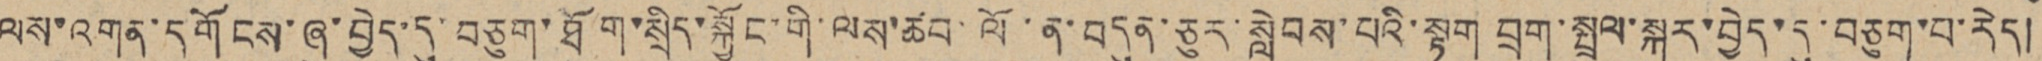ལས་འགན་དགོངས་ཞུ་བྱེད་དུ་བཅུག་ཐོག་སྲིད་སྐྱོང་གི་ལས་ཚབ་ལོ་ན་བདུན་ཅུར་སླེབས་པའི་སྟག བྲག་སྤྲུལ་སྐུར་བྱེད་དུ་བཅུག་པ་རེད།
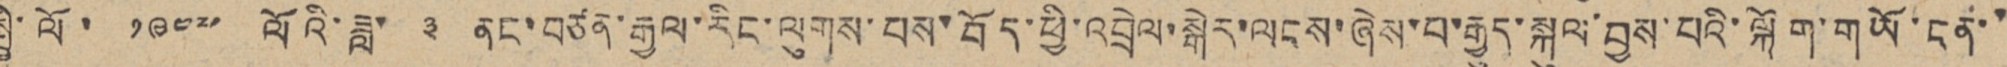སྤྱི་ལོ་ ༡༩༤༧ ལོའི་ཟླ་ ༣ ནང་བཙན་རྒྱལ་རིང་ལུགས་པས་བོད་ཕྱི་འབྲེལ་སྒེར་ལངས་ཞེས་པ་རྒྱུད་སྐུལ་བྱས་པའི་ལྐོག་གཡོ་ངན་་
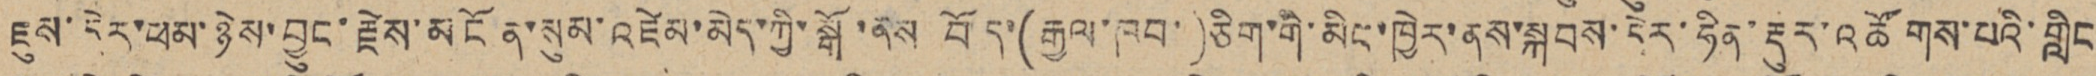ཇུས་དེར་ཕམ་ཉེས་བྱུང་རྗེས་མངོན་སུམ་འཛེམ་མེད་ཀྱི་སྒོ་ནས བོད་(རྒྱལ་ཁབ་)ཅིག་གི་མིང་ཁྱེར་ནས་སྐབས་དེར་ཧིན་རྡུར་འཚོགས་པའི་གླིང
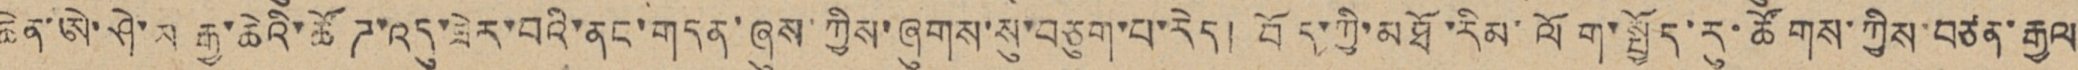ཆེན་ཨེ་ཤེ་ཡ རྒྱ་ཆེའི་ཚོཊ་འདུ་ཟེར་བའི་ནང་གདན་ཞུས་ཀྱིས་ཞུགས་སུ་བཅུག་པ་རེད། བོད་ཀྱི་མཐོ་རིམ་ལོག་སྤྱོད་རུ་ཚོགས་ཀྱིས་བཙན་རྒྱལ
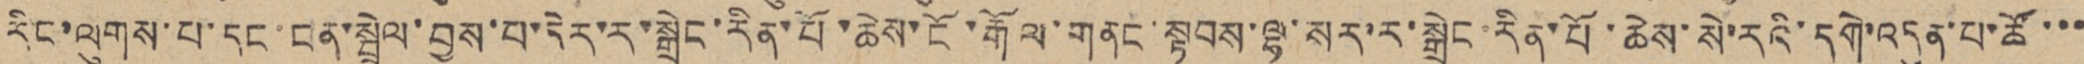རིང་ལུགས་པ་དང་བན་སྦྲེལ་བྱས་པ་དེར་ར་སྒྲེང་རིན་པོ་ཆེས་ངོ་རྒོལ་གནང་སྟབས་ལྷ་སར་ར་སྒྲེང་རིན་པོ་ཆེས་སེ་རའི་དགེ་འདུན་པ་ཚོ་་་
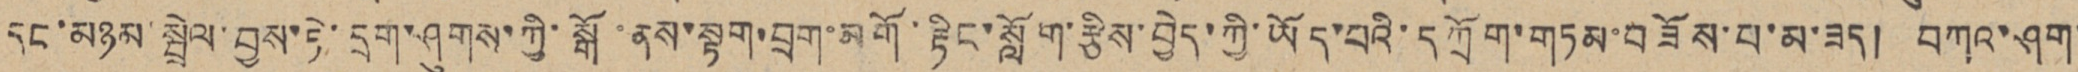དང་མཉམ་སྦྲེལ་བྱས་ཏེ་དྲག་ཤུགས་ཀྱི་སྒོ་ནས་སྟག་བྲག་མགོ་རྟིང་སློག་རྩིས་བྱེད་ཡོད་པའི་དཀྲོག་གཏམ་བཟོས་པ་མ་ཟད། བཀའ་ཤག་
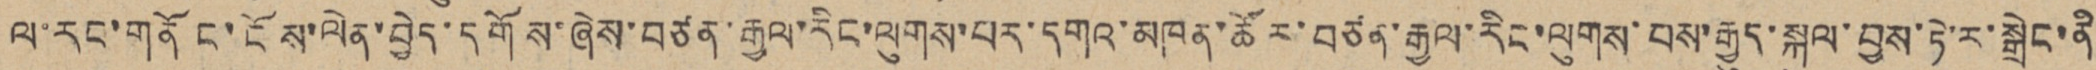ལ་རང་གནོང་ངོས་ལེན་བྱེད་དགོས་ཞེས་བཙན་རྒྱལ་རིང་ལུགས་པར་དགའ་མཁན་ཚོར་བཙན་རྒྱལ་རིང་ལུགས་པས་རྒྱུད་སྐུལ་བྱས་ཏེ་ར་སྒྲེང་ནི
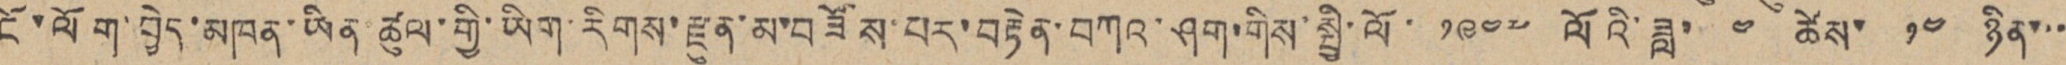ངོ་ལོག་བྱེད་མཁན་ཡིན་ཚུལ་གྱི་ཡིག་རིགས་རྫུན་མ་བཟོས་པར་བརྟེན་བཀའ་ཤག་གིས་སྤྱི་ལོ་ ༡༩༥༧ ལོའི་ཟླ་ ༤ ཚེས་ ༡༤ ཉིན་་་
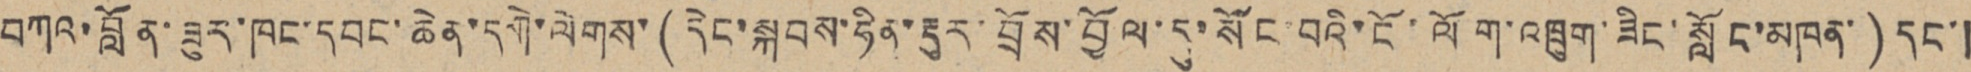བཀའ་བློན་ཟུར་ཁང་དབང་ཆེན་དགེ་ལེགས་(དེང་སྐབས་ཧིན་རྡུར་བྲོས་བྱོལ་དུ་སོང་བའི་ངོ་ལོག་འཁྲུག་ཟིང་སློང་མཁན་)དང་།
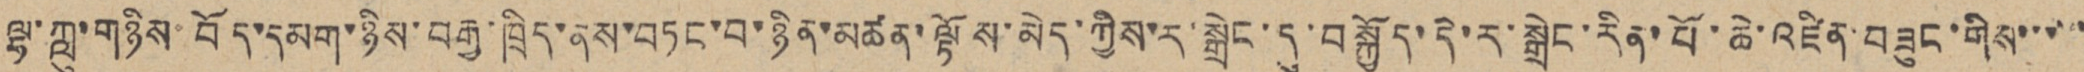ལྷ་ཀླུ་གཉིས་བོད་དམག་ཉིས་བརྒྱ་ཁྲིད་ནས་བཏང་བ་ཉིན་མཚན་ལྟོས་མེད་ཀྱིས་ར་སྒྲེང་དུ་བསྐྱོད་དེ་ར་སྒྲེང་རིན་པོ་ཆེ་འཛིན་བཟུང་གིས་་་་་་
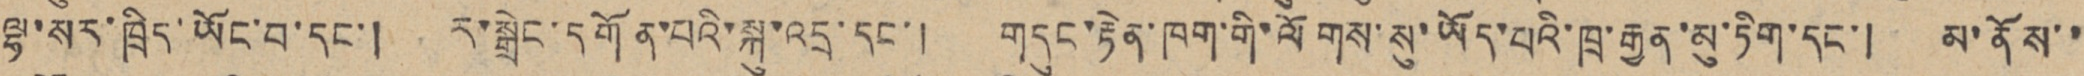ལྷ་སར་ཁྲིད་ཡོང་བ་དང་། ར་སྒྲེང་དགོན་པའི་སྐུ་འདྲ་དང་། གདུང་རྟེན་ཁག་གི་ལོགས་སུ་ཡོད་པའི་ཁྲ་རྒྱན་མུ་ཏིག་དང་། མ་ནོས་་
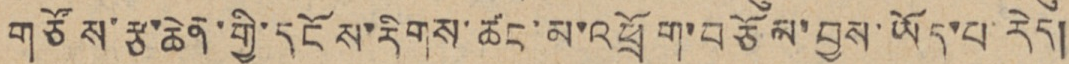གཙོས་རྩ་ཆེན་གྱི་དངོས་རིགས་ཚང་མ་འཕྲོག་བཅོམ་བྱས་ཡོད་པ་རེད།
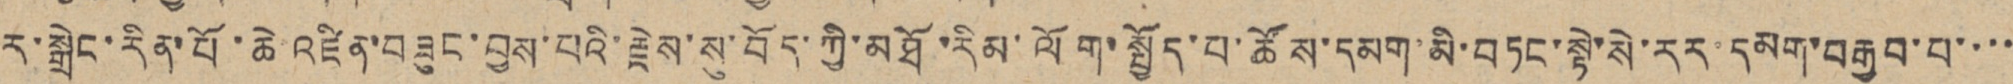ར་སྒྲེང་རིན་པོ་ཆེ་འཛིན་བཟུང་བྱས་པའི་རྗེས་སུ་བོད་ཀྱི་མཐོ་རིམ་ལོག་སྤྱོད་པ་ཚོས་དམག་མི་བཏང་སྟེ་སེ་རར་དམག་བརྒྱབ་པ་་་་
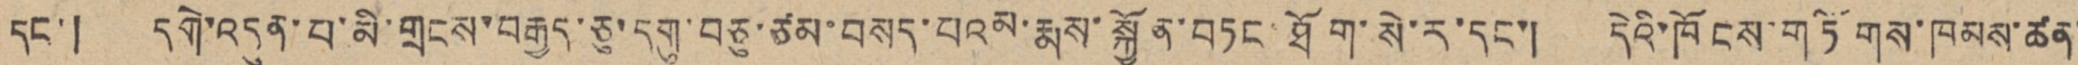དང་། དགེ་འདུན་པ་མི་གྲངས་བརྒྱད་ཅུ་དགུ་བཅུ་ཙམ་བསད་པའམ་རྨས་སྐྱོན་བཏང་ཐོག་སེ་ར་དང་། དེའི་ཁོངས་གཏོགས་ཁམས་ཚན་
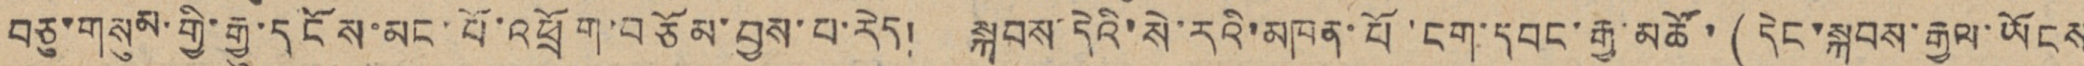བཅུ་གསུམ་གྱི་རྒྱུ་དངོས་མང་པོ་འཕྲོག་བཅོམ་བྱས་པ་རེད། སྐབས་དེའི་སེ་རའི་མཁན་པོ་ངག་དབང་རྒྱ་མཚོ་(དེང་སྐབས་རྒྱལ་ཡོངས
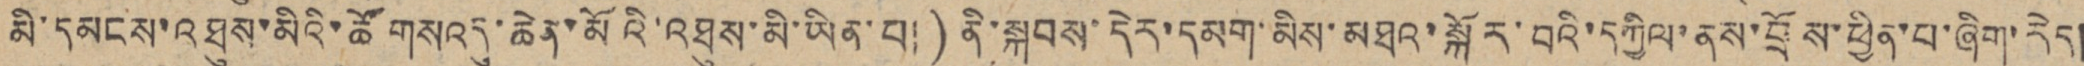མི་དམངས་འཐུས་མིའི་ཚོགས འདུ་ཆེན་མོའི་འཐུས་མི་ཡིན་པ།) ནི་སྐབས་དེར་དམག་མིས་མཐའ་སྐོར་བའི་དཀྱིལ་ནས་བྲོས་ཕྱིན་པ་ཞིག་རེད།
